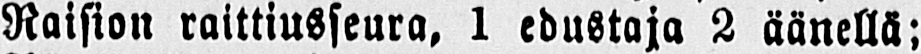Raision raittiusseura, 1 edustaja 2 äänellä:
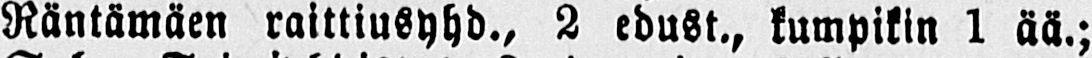Räntämäen raittiusyhd., 2 edust., kumpikin 1 ää.;
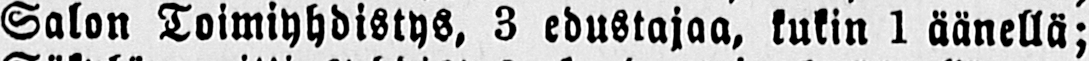Salon Toimiyhdistys. 3 edustajaa, kukin 1 äänellä;
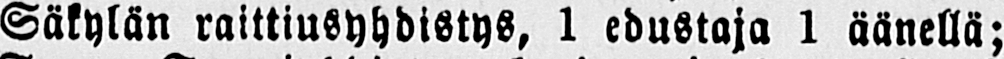Säkylän raittiusyhdistys, 1 edustaja 1 äänellä;
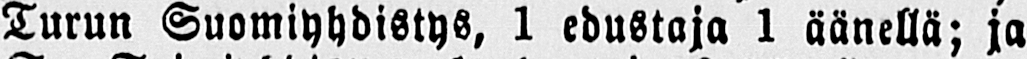Turun Suomiyhdistys, 1 edustaja 1 äänellä; ja
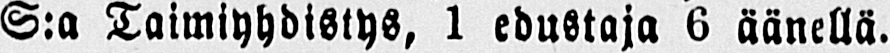S:a Taimiyhdistys, 1 edustaja 6 äänellä.
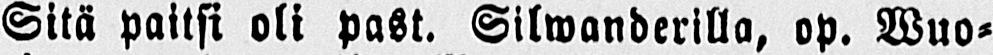Sitä paitsi oli past. Silwanderilla, op. Wuo-
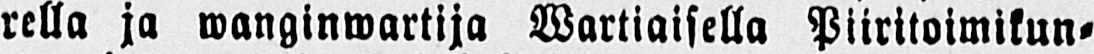rella ja wanginwartija Wartiaisella Piiritoimikun-
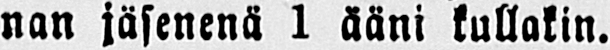nan jäsenenä 1 ääni kullakin.
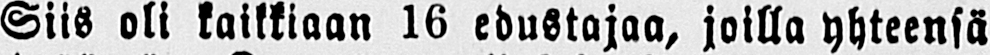Siis oli kaikkiaan 16 edustajaa, joilla yhteensä
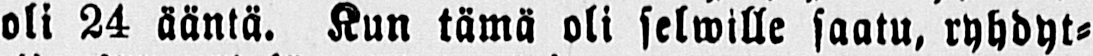oli 24 ääntä. Kun tämä oli selwille saatu, ryhdyt-
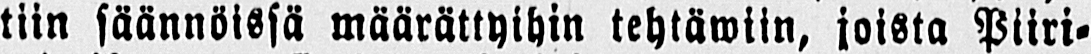tiin säännöissä määrättyihin tehtäwiin, joista Piiri-
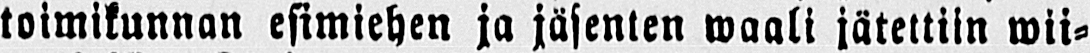toimikunnan esimiehen ja jäsenten waali jätettiin wii-
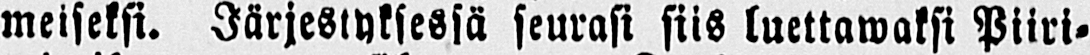meiseksi. Järjestyksessä seurasi siis luettawaksi Piiri-
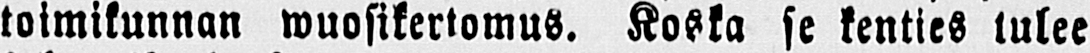toimikunnan wuosikertomus. Koska se kenties tulee
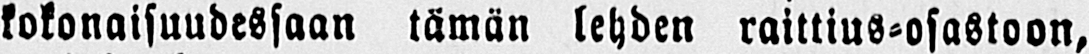kokonaisuudessaan tämän lehden raittius-osastoon,
